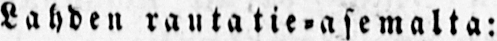Lahden rautatie-asemalta:
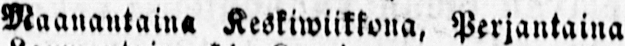Maanantaina Keskiwiikkona, Perjantaina
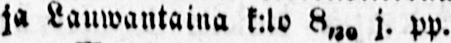ja Lauwantaina k:lo 8,20 j. pp.
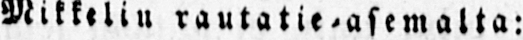Mikkeliu rautatie-asemalta:
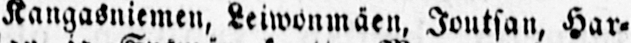Kangasniemen, Leiwonmäen, Joutsan, Har-
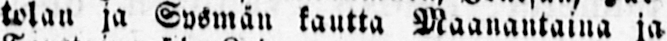tolan ja Sysmän kautta Maanantaina ja
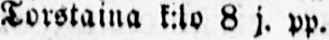Torstaina k:lo 8 j. pp.
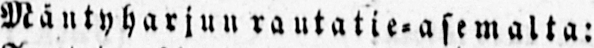Mäntyharjun rautatie- asemalta:
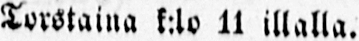Torstaina k:lo 11 illalla.
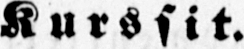Kurssit.
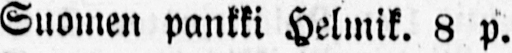Suomen pankki Helmik. 8 p.
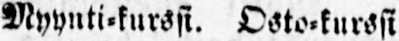Myynti-kurssi. Osto-kurssi.
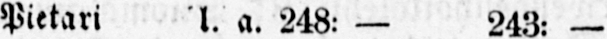Pietari l. a. 248: — 243: —
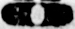DÖD.
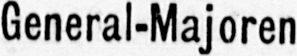General-Majoren
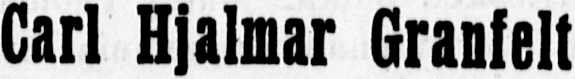Carl Hjalmar Granfelt
